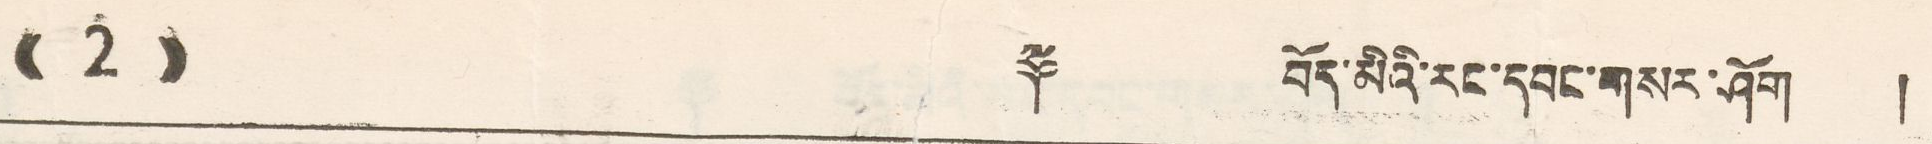(( 2 )) ༈ བོད་མིའི་རང་དབང་གསར་ཤོག །
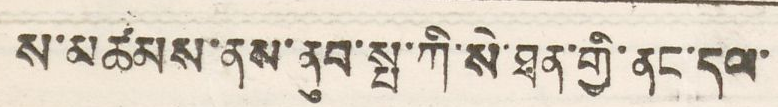ས་མཚམས་ནས་ནུབ་སྤ་ཀི་སི་ཐན་གྱི་ནང་དལ་
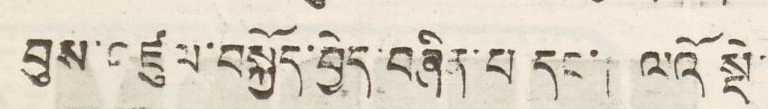བུས་འཛུལ་བསྐྱོད་བྱེད་བཞིན་པ དང་། ལའོ སྡེ
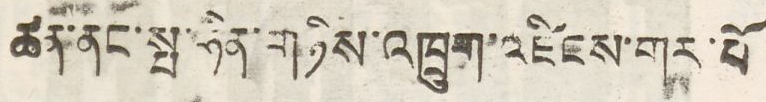ཚང་ནང་སྤ་ཧིན་གཉིས་འཁྲུག་འཛུངས་གར་པོ
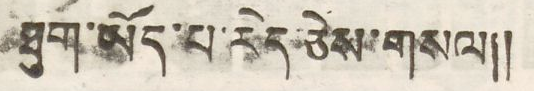ཐུག་ཡོད་པ་རེད་ཅེས་གསལ།།
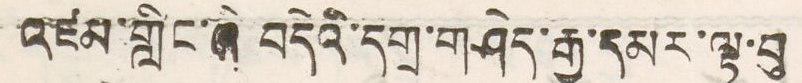འཛམ་གླིང་ཞི བདེའི་དགྲ་གཤེད་རྒྱ་དམར་ལྟ་བུ
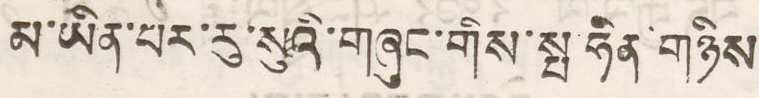མ་ཡིན་པར་རུ་སུའི་གཞུང་གིས་སྤ་ཧིན་གཉིས
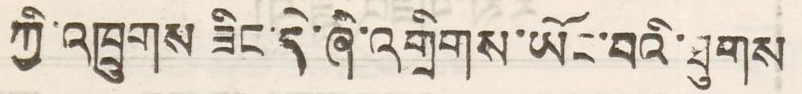ཀྱི་འཁྲུགས་ཟིང་དེ་ཞེ་འགྲིགས་ཡོང་བའི་ཐུགས
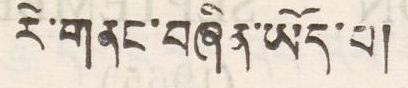རེ་གནང་བཞིན་ཡོད་པ།
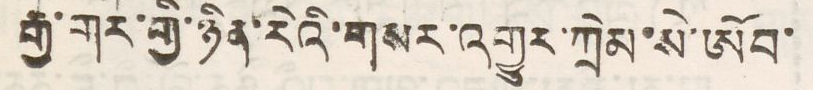རྒྱ་གར་གྱི་ཉིན་རེའི་གསར་འགྱུར་ཀྲེམ་སེ་ཨོབ་
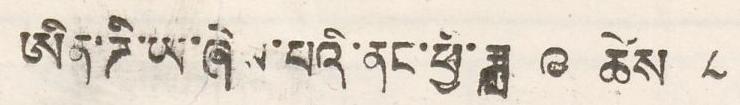ཨིན་ཌི་ཡ་ཟྒེས་པའི་ནང་ཕྱི་ཟླ ༩ ཚེས ༨
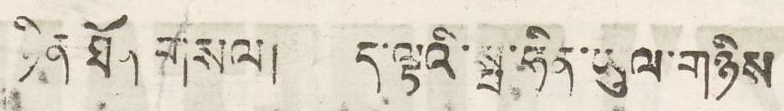ཉིན་ཐོན་གསལ། ད་ལྟའི་སྤ་ཧིན་ཡུལ་གཉིས
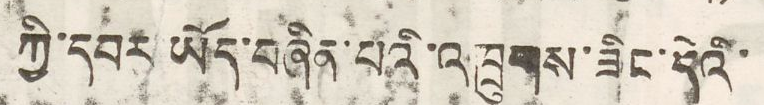ཀྱི་དབར ཡོད་བཞིན་པའི་འཁྲུགས་ཟིང་དེའི་
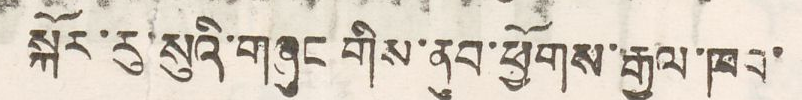སྐོར་རུ་སུའི་གཞུང གིས་ནུབ་ཕྱོགས་རྒྱལ་ཁབ་
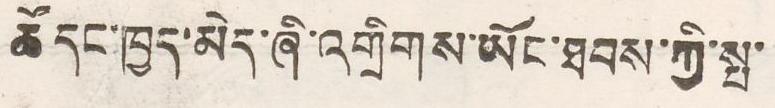ཚོ དང་ཁྱད་མེད་ཞི་འགྲིགས་ཡོང་ཐབས་ཀྱི་སྤ་
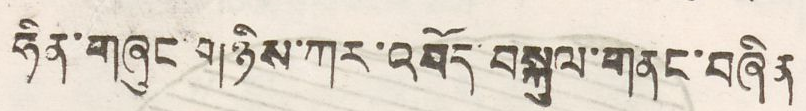ཧིན་གཞུང་གཉིས་ཀར་བོད་བསྐུལ་གནང་བཞིན
